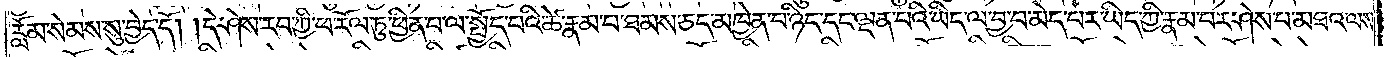རློམ་སེམས་སུ་བྱེད་དོ། །དེ་ཤེས་རབ་ཀྱི་ཕ་རོལ་ཏུ་ཕྱིན་པ་ལ་སྤྱོད་པའི་ཚེ་རྣམ་པ་ཐམས་ཅད་མཁྱེན་པ་ཉིད་དང་ལྡན་པའི་ཡིད་ལ་བྱ་བ་མེད་པར་ཡིད་ཀྱི་རྣམ་པར་ཤེས་པ་མཐའ་ལས་
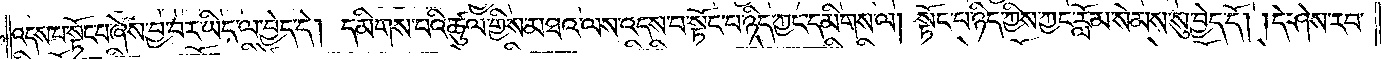འདས་པ་སྟོང་པ་ཞེས་བྱ་བར་ཡིད་ལ་བྱེད་དེ། དམིགས་པའི་ཚུལ་གྱིས་མཐའ་ལས་འདས་པ་སྟོང་པ་ཉིད་ཀྱང་དམིགས་ལ། སྟོང་པ་ཉིད་ཀྱིས་ཀྱང་རློམ་སེམས་སུ་བྱེད་དོ། །དེ་ཤེས་རབ་
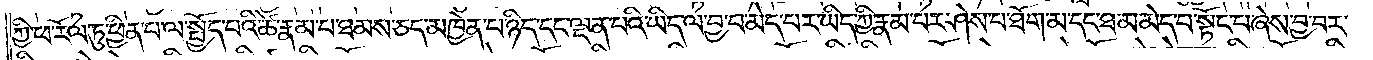ཀྱི་ཕ་རོལ་ཏུ་ཕྱིན་པ་ལ་སྤྱོད་པའི་ཚེ་རྣམ་པ་ཐམས་ཅད་མཁྱེན་པ་ཉིད་དང་ལྡན་པའི་ཡིད་ལ་བྱ་བ་མེད་པར་ཡིད་ཀྱི་རྣམ་པར་ཤེས་པ་ཐོག་མ་དང་ཐ་མ་མེད་པ་སྟོང་པ་ཞེས་བྱ་བར་
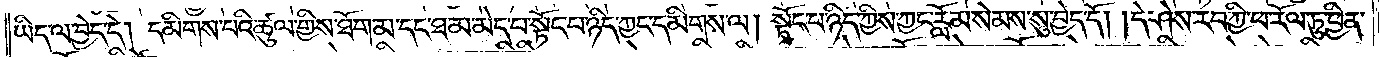ཡིད་ལ་བྱེད་དེ། དམིགས་པའི་ཚུལ་གྱིས་ཐོག་མ་དང་ཐ་མ་མེད་པ་སྟོང་པ་ཉིད་ཀྱང་དམིགས་ལ། སྟོང་པ་ཉིད་ཀྱིས་ཀྱང་རློམ་སེམས་སུ་བྱེད་དོ། །དེ་ཤེས་རབ་ཀྱི་ཕ་རོལ་ཏུ་ཕྱིན་
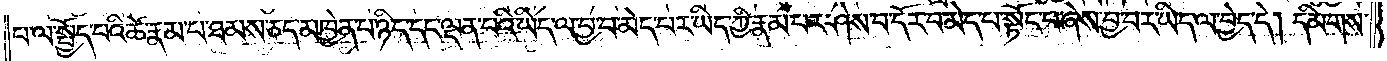པ་ལ་སྤྱོད་པའི་ཚེ་རྣམ་པ་ཐམས་ཅད་མཁྱེན་པ་ཉིད་དང་ལྡན་པའི་ཡིད་ལ་བྱ་བ་མེད་པར་ཡིད་ཀྱི་རྣམ་པར་ཤེས་པ་དོར་བ་མེད་པ་སྟོང་པ་ཞེས་བྱ་བར་ཡིད་ལ་བྱེད་དེ། དམིགས་
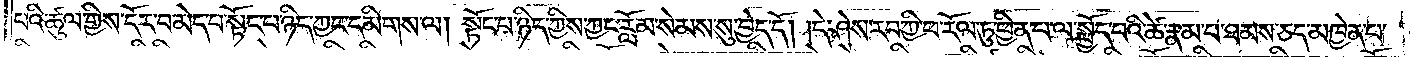པའི་ཚུལ་གྱིས་དོར་བ་མེད་པ་སྟོང་པ་ཉིད་ཀྱང་དམིགས་ལ། སྟོང་པ་ཉིད་ཀྱིས་ཀྱང་རློམ་སེམས་སུ་བྱེད་དོ། །དེ་ཤེས་རབ་ཀྱི་ཕ་རོལ་ཏུ་ཕྱིན་པ་ལ་སྤྱོད་པའི་ཚེ་རྣམ་པ་ཐམས་ཅད་མཁྱེན་པ་
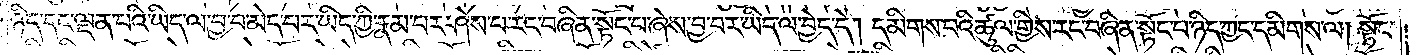ཉིད་དང་ལྡན་པའི་ཡིད་ལ་བྱ་བ་མེད་པར་ཡིད་ཀྱི་རྣམ་པར་ཤེས་པ་རང་བཞིན་སྟོང་པ་ཞེས་བྱ་བར་ཡིད་ལ་བྱེད་དེ། དམིགས་པའི་ཚུལ་གྱིས་རང་བཞིན་སྟོང་པ་ཉིད་ཀྱང་དམིགས་ལ། སྟོང་
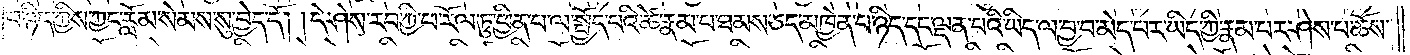པ་ཉིད་ཀྱིས་ཀྱང་རློམ་སེམས་སུ་བྱེད་དོ། །དེ་ཤེས་རབ་ཀྱི་ཕ་རོལ་ཏུ་ཕྱིན་པ་ལ་སྤྱོད་པའི་ཚེ་རྣམ་པ་ཐམས་ཅད་མཁྱེན་པ་ཉིད་དང་ལྡན་པའི་ཡིད་ལ་བྱ་བ་མེད་པར་ཡིད་ཀྱི་རྣམ་པར་ཤེས་པ་ཆོས་
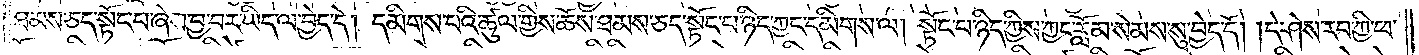ཐམས་ཅད་སྟོང་པ་ཞེས་བྱ་བར་ཡིད་ལ་བྱེད་དེ། དམིགས་པའི་ཚུལ་གྱིས་ཆོས་ཐམས་ཅད་སྟོང་པ་ཉིད་ཀྱང་དམིགས་ལ། སྟོང་པ་ཉིད་ཀྱིས་ཀྱང་རློམ་སེམས་སུ་བྱེད་དོ། །དེ་ཤེས་རབ་ཀྱི་ཕ་
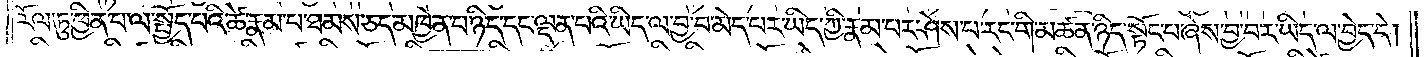རོལ་ཏུ་ཕྱིན་པ་ལ་སྤྱོད་པའི་ཚེ་རྣམ་པ་ཐམས་ཅད་མཁྱེན་པ་ཉིད་དང་ལྡན་པའི་ཡིད་ལ་བྱ་བ་མེད་པར་ཡིད་ཀྱི་རྣམ་པར་ཤེས་པ་རང་གི་མཚན་ཉིད་སྟོང་པ་ཞེས་བྱ་བར་ཡིད་ལ་བྱེད་དེ།
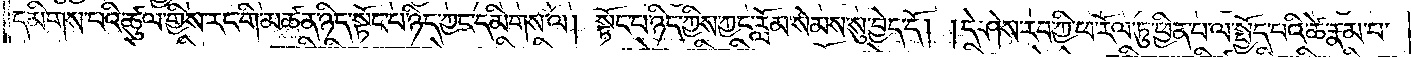དམིགས་པའི་ཚུལ་གྱིས་རང་གི་མཚན་ཉིད་སྟོང་པ་ཉིད་ཀྱང་དམིགས་ལ། སྟོང་པ་ཉིད་ཀྱིས་ཀྱང་རློམ་སེམས་སུ་བྱེད་དོ། །དེ་ཤེས་རབ་ཀྱི་ཕ་རོལ་ཏུ་ཕྱིན་པ་ལ་སྤྱོད་པའི་ཚེ་རྣམ་པ་
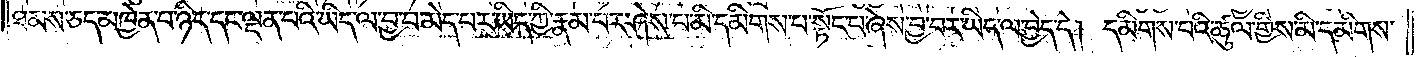ཐམས་ཅད་མཁྱེན་པ་ཉིད་དང་ལྡན་པའི་ཡིད་ལ་བྱ་བ་མེད་པར་ཡིད་ཀྱི་རྣམ་པར་ཤེས་པ་མི་དམིགས་པ་སྟོང་པ་ཞེས་བྱ་བར་ཡིད་ལ་བྱེད་དེ། དམིགས་པའི་ཚུལ་གྱིས་མི་དམིགས་
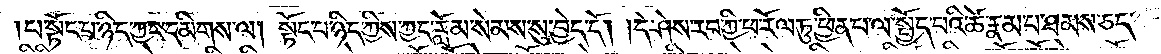པ་སྟོང་པ་ཉིད་ཀྱང་དམིགས་ལ། སྟོང་པ་ཉིད་ཀྱིས་ཀྱང་རློམ་སེམས་སུ་བྱེད་དོ། །དེ་ཤེས་རབ་ཀྱི་ཕ་རོལ་ཏུ་ཕྱིན་པ་ལ་སྤྱོད་པའི་ཚེ་རྣམ་པ་ཐམས་ཅད་
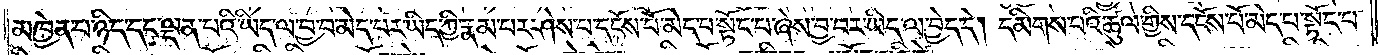མཁྱེན་པ་ཉིད་དང་ལྡན་པའི་ཡིད་ལ་བྱ་བ་མེད་པར་ཡིད་ཀྱི་རྣམ་པར་ཤེས་པ་དངོས་པོ་མེད་པ་སྟོང་པ་ཞེས་བྱ་བར་ཡིད་ལ་བྱེད་དེ། དམིགས་པའི་ཚུལ་གྱིས་དངོས་པོ་མེད་པ་སྟོང་པ་
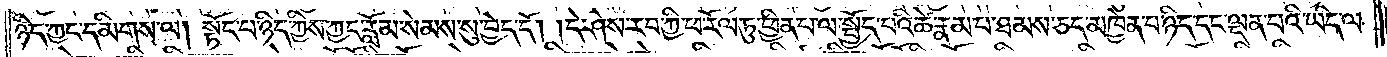ཉིད་ཀྱང་དམིགས་ལ། སྟོང་པ་ཉིད་ཀྱིས་ཀྱང་རློམ་སེམས་སུ་བྱེད་དོ། །དེ་ཤེས་རབ་ཀྱི་ཕ་རོལ་ཏུ་ཕྱིན་པ་ལ་སྤྱོད་པའི་ཚེ་རྣམ་པ་ཐམས་ཅད་མཁྱེན་པ་ཉིད་དང་ལྡན་པའི་ཡིད་ལ་
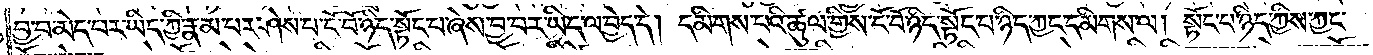བྱ་བ་མེད་པར་ཡིད་ཀྱི་རྣམ་པར་ཤེས་པ་ངོ་བོ་ཉིད་སྟོང་པ་ཞེས་བྱ་བར་ཡིད་ལ་བྱེད་དེ། དམིགས་པའི་ཚུལ་གྱིས་ངོ་བོ་ཉིད་སྟོང་པ་ཉིད་ཀྱང་དམིགས་ལ། སྟོང་པ་ཉིད་ཀྱིས་ཀྱང་
